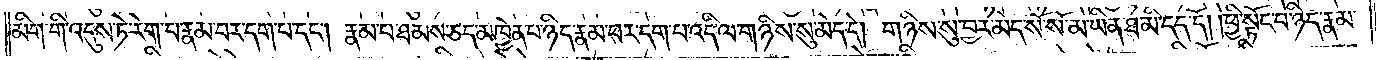མིག་གི་འདུས་ཏེ་རེག་པ་རྣམ་པར་དག་པ་དང༌། རྣམ་པ་ཐམས་ཅད་མཁྱེན་པ་ཉིད་རྣམ་པར་དག་པ་འདི་ལ་གཉིས་སུ་མེད་དེ། གཉིས་སུ་བྱར་མེད་སོ་སོ་མ་ཡིན་ཐ་མི་དད་དོ། །ཕྱི་སྟོང་པ་ཉིད་རྣམ་
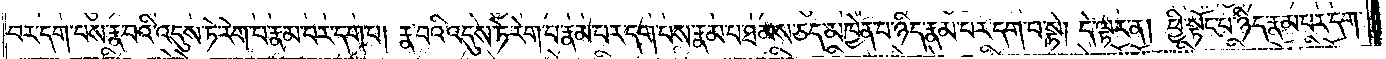པར་དག་པས་རྣ་བའི་འདུས་ཏེ་རེག་པ་རྣམ་པར་དག་པ། རྣ་བའི་འདུས་ཏེ་རེག་པ་རྣམ་པར་དག་པས་རྣམ་པ་ཐམས་ཅད་མཁྱེན་པ་ཉིད་རྣམ་པར་དག་པ་སྟེ། དེ་ལྟར་ན། ཕྱི་སྟོང་པ་ཉིད་རྣམ་པར་དག་
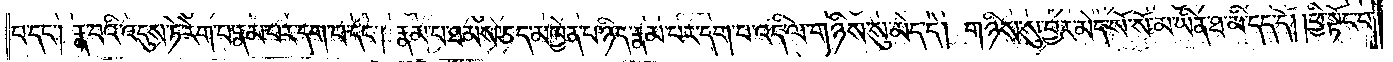པ་དང༌། རྣ་བའི་འདུས་ཏེ་རེག་པ་རྣམ་པར་དག་པ་དང༌། རྣམ་པ་ཐམས་ཅད་མཁྱེན་པ་ཉིད་རྣམ་པར་དག་པ་འདི་ལ་གཉིས་སུ་མེད་དེ། གཉིས་སུ་བྱར་མེད་སོ་སོ་མ་ཡིན་ཐ་མི་དད་དོ། །ཕྱི་སྟོང་པ་
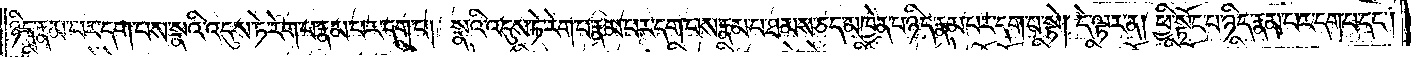ཉིད་རྣམ་པར་དག་པས་སྣའི་འདུས་ཏེ་རེག་པ་རྣམ་པར་དག་པ༑སྣའི་འདུས་ཏེ་རེག་པ་རྣམ་པར་དག་པས་རྣམ་པ་ཐམས་ཅད་མཁྱེན་པ་ཉིད་རྣམ་པར་དག་པ་སྟེ། དེ་ལྟར་ན། ཕྱི་སྟོང་པ་ཉིད་རྣམ་པར་དག་པ་དང༌།
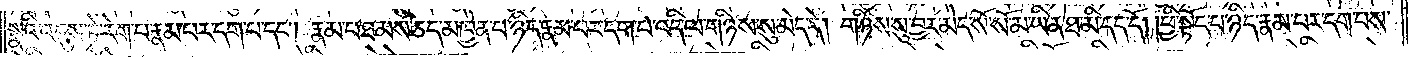སྣའི་འདུས་ཏེ་རེག་པ་རྣམ་པར་དག་པ་དང༌། རྣམ་པ་ཐམས་ཅད་མཁྱེན་པ་ཉིད་རྣམ་པར་དག་པ་འདི་ལ་གཉིས་སུ་མེད་དེ། གཉིས་སུ་བྱར་མེད་སོ་སོ་མ་ཡིན་ཐ་མི་དད་དོ། །ཕྱི་སྟོང་པ་ཉིད་རྣམ་པར་དག་པས་
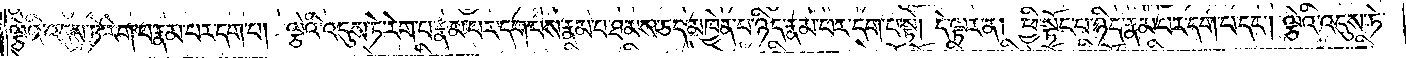ལྕེའི་འདུས་ཏེ་རེག་པ་རྣམ་པར་དག་པ། ལྕེའི་འདུས་ཏེ་རེག་པ་རྣམ་པར་དག་པས་རྣམ་པ་ཐམས་ཅད་མཁྱེན་པ་ཉིད་རྣམ་པར་དག་པ་སྟེ། དེ་ལྟར་ན། ཕྱི་སྟོང་པ་ཉིད་རྣམ་པར་དག་པ་དང༌། ལྕེའི་འདུས་ཏེ་
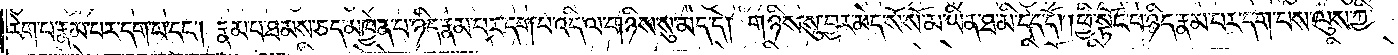རེག་པ་རྣམ་པར་དག་པ་དང༌། རྣམ་པ་ཐམས་ཅད་མཁྱེན་པ་ཉིད་རྣམ་པར་དག་པ་འདི་ལ་གཉིས་སུ་མེད་དེ། གཉིས་སུ་བྱར་མེད་སོ་སོ་མ་ཡིན་ཐ་མི་དད་དོ། །ཕྱི་སྟོང་པ་ཉིད་རྣམ་པར་དག་པས་ལུས་ཀྱི་
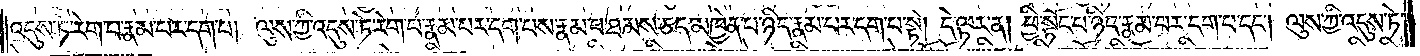འདུས་ཏེ་རེག་པ་རྣམ་པར་དག་པ། ལུས་ཀྱི་འདུས་ཏེ་རེག་པ་རྣམ་པར་དག་པས་རྣམ་པ་ཐམས་ཅད་མཁྱེན་པ་ཉིད་རྣམ་པར་དག་པ་སྟེ། དེ་ལྟར་ན། ཕྱི་སྟོང་པ་ཉིད་རྣམ་པར་དག་པ་དང༌། ལུས་ཀྱི་འདུས་ཏེ་
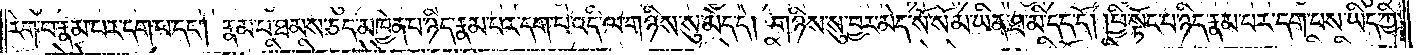རེག་པ་རྣམ་པར་དག་པ་དང༌། རྣམ་པ་ཐམས་ཅད་མཁྱེན་པ་ཉིད་རྣམ་པར་དག་པ་འདི་ལ་གཉིས་སུ་མེད་དེ། གཉིས་སུ་བྱར་མེད་སོ་སོ་མ་ཡིན་ཐ་མི་དད་དོ། །ཕྱི་སྟོང་པ་ཉིད་རྣམ་པར་དག་པས་ཡིད་ཀྱི་
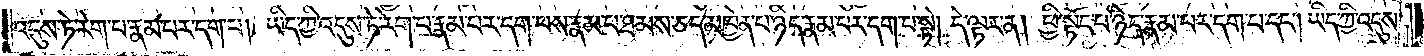འདུས་ཏེ་རེག་པ་རྣམ་པར་དག་པ། ཡིད་ཀྱི་འདུས་ཏེ་རེག་པ་རྣམ་པར་དག་པས་རྣམ་པ་ཐམས་ཅད་མཁྱེན་པ་ཉིད་རྣམ་པར་དག་པ་སྟེ། དེ་ལྟར་ན། ཕྱི་སྟོང་པ་ཉིད་རྣམ་པར་དག་པ་དང༌། ཡིད་ཀྱི་འདུས་
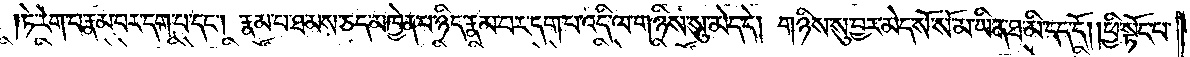ཏེ་རེག་པ་རྣམ་པར་དག་པ་དང༌། རྣམ་པ་ཐམས་ཅད་མཁྱེན་པ་ཉིད་རྣམ་པར་དག་པ་འདི་ལ་གཉིས་སུ་མེད་དེ། གཉིས་སུ་བྱར་མེད་སོ་སོ་མ་ཡིན་ཐ་མི་དད་དོ། །ཕྱི་སྟོང་པ་
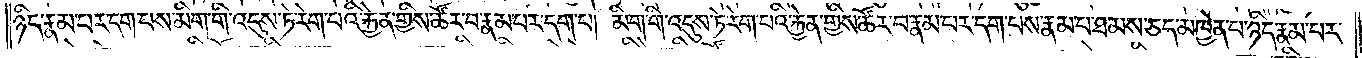ཉིད་རྣམ་པར་དག་པས་མིག་གི་འདུས་ཏེ་རེག་པའི་རྐྱེན་གྱིས་ཚོར་བ་རྣམ་པར་དག་པ། མིག་གི་འདུས་ཏེ་རེག་པའི་རྐྱེན་གྱིས་ཚོར་བ་རྣམ་པར་དག་པས་རྣམ་པ་ཐམས་ཅད་མཁྱེན་པ་ཉིད་རྣམ་པར་
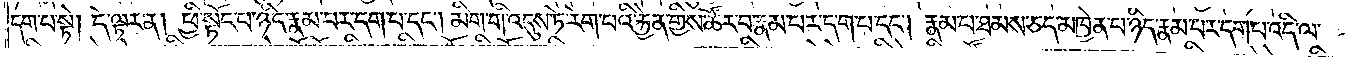དག་པ་སྟེ། དེ་ལྟར་ན་ཕྱི་སྟོང་པ་ཉིད་རྣམ་པར་དག་པ་དང༌། མིག་གི་འདུས་རེག་པའི་རྐྱེན་གྱིས་ཚོར་བ་རྣམ་པར་དག་པ་དང༌། རྣམ་པ་ཐམས་ཅད་མཁྱེན་པ་ཉིད་རྣམ་པར་དག་པ་འདི་ལ་
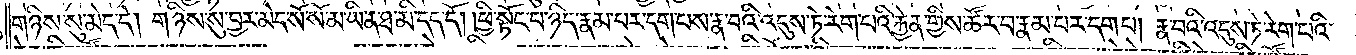གཉིས་སུ་མེད་དེ། གཉིས་སུ་བྱར་མེད་སོ་སོ་མ་ཡིན་ཐ་མི་དད་དོ། ། ཕྱི་སྟོང་པ་ཉིད་རྣམ་པར་དག་པས་རྣ་བའི་འདུས་ཏེ་རེག་པའི་རྐྱེན་གྱིས་ཚོར་བ་རྣམ་པར་དག་པ། རྣ་བའི་འདུས་ཏེ་རེག་པའི་
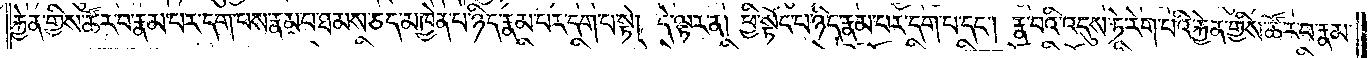རྐྱེན་གྱིས་ཚོར་བ་རྣམ་པར་དག་པས་རྣམ་པ་ཐམས་ཅད་མཁྱེན་པ་ཉིད་རྣམ་པར་དག་པ་སྟེ། དེ་ལྟར་ན། ཕྱི་སྟོང་པ་ཉིད་རྣམ་པར་དག་པ་དང༌། རྣ་བའི་འདུས་ཏེ་རེག་པའི་རྐྱེན་གྱིས་ཚོར་བ་རྣམ་
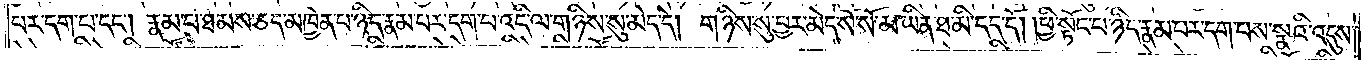པར་དག་པ་དང༌། རྣམ་པ་ཐམས་ཅད་མཁྱེན་པ་ཉིད་རྣམ་པར་དག་པ་འདི་ལ་གཉིས་སུ་མེད་དེ། གཉིས་སུ་བྱར་མེད་སོ་སོ་མ་ཡིན་ཐ་མི་དད་དོ། །ཕྱི་སྟོང་པ་ཉིད་རྣམ་པར་དག་པས་སྣའི་འདུས་
